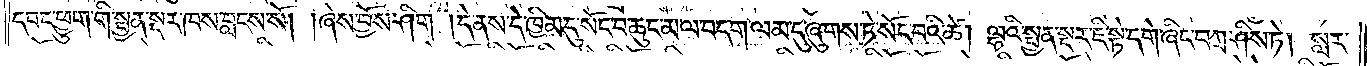དབང་ཕྱུག་གི་སྤྱན་སྔར་ཁས་བླངས་སོ། །ཞེས་བྱོས་ཤིག །དེ་ནས་དེ་ཁྱིམ་དུ་སོང་བ་ཆུང་མ་ལ་བདག་ལམ་དུ་ཞུགས་ཏེ་སོང་བའི་ཚེ། ལྷའི་སྤྱན་སྔར་ཇི་སྟེ་དགེ་ཞིང་བཀྲ་ཤིས་ཏེ། སླར་
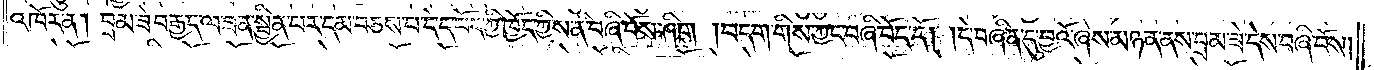འཁོར་ན། བྲམ་ཟེ་བརྒྱད་ལ་ཟན་སྦྱིན་པར་དམ་བཅས་པ་དེ་ད་བོད་ཀྱི་ཁྱོད་ཀྱིས་ནི་བཞི་པོས་ཤིག །བདག་གིས་ཀྱང་བཞི་བོད་དོ། །དེ་བཞིན་དུ་བྱའོ་ཞེས་མཉན་ནས་བྲམ་ཟེ་དེས་བཞི་བོས།
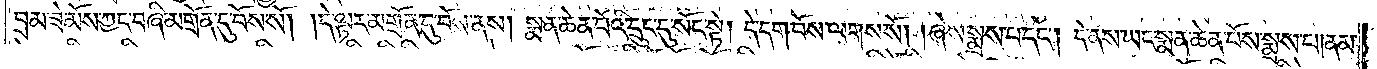བྲམ་ཟེ་མོས་ཀྱང་བཞི་མགྲོན་དུ་བོས་སོ། །དེ་ལྟར་མགྲོན་དུ་བོས་ནས། སྨན་ཆེན་པོའི་དྲུང་དུ་སོང་སྟེ། དེ་དག་བོས་ལགས་སོ། །ཞེས་སྨྲས་པ་དང༌། དེ་ནས་ཡང་སྨན་ཆེན་པོས་སྨྲས་པ། ནམ་
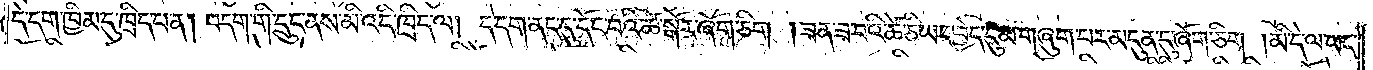དེ་དག་ཁྱིམ་དུ་ཁྲིད་པ་ན། བདག་གི་དྲུང་ནས་མི་འདི་ཁྲིད་ལ། དེ་དག་ནང་དུ་དོང་བའི་ཚེ་སྒོར་ཞོག་ཅིག །ཟན་ཟ་བའི་ཚེ་ཅི་ཡང་བྱེད་དུ་མ་གཞུག་པར་མདུན་དུ་ཞོག་ཅིག །མི་དེ་ལ་ཡང་
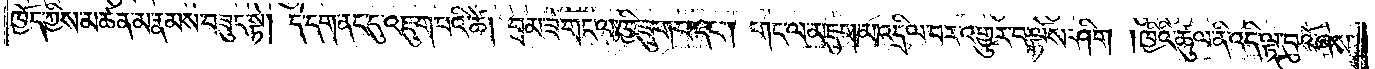ཁྱོད་ཀྱིས་མཚན་མ་རྣམས་བཟུང་སྟེ། དེ་དག་ནང་དུ་འཇུག་པའི་ཚེ། བྲམ་ཟེ་གང་ལ་ཁྱི་ཟུག་པ་དང༌། གང་ལ་མཇུག་མ་འདྲིལ་བར་འགྱུར་བ་ལྟོས་ཤིག །ཁྱིའི་ཚུལ་ནི་འདི་ལྟ་བུའོ་ཞེས་
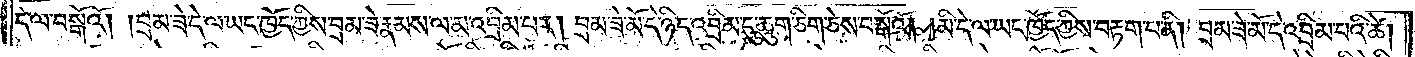དེ་ལ་བསྒོའོ། །བྲམ་ཟེ་དེ་ལ་ཡང་ཁྱོད་ཀྱིས་བྲམ་ཟེ་རྣམས་ལ་མ་འབྲིམ་པར། བྲམ་ཟེ་མོ་དེ་ཉིད་འབྲིམ་དུ་ཆུག་ཅིག་ཅེས་བསྒོའོ། །མི་དེ་ལ་ཡང་ཁྱོད་ཀྱིས་བརྟག་པ་ནི། བྲམ་ཟེ་མོ་དེ་འབྲིམ་པའི་ཚེ།
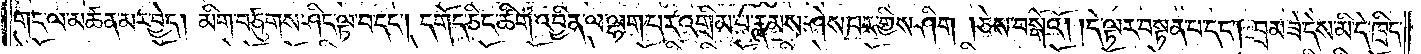གང་ལ་མཚན་མར་བྱེད། མིག་བཙུགས་ཤིང་ལྟ་བ་དང༌། དགོད་ཅིང་ཚིག་འབྱིན་ལ་ལྷག་པར་འགྲིམ་པ་རྣམས་ཤེས་པར་གྱིས་ཤིག །ཅེས་བསྒོའོ། །དེ་ལྟར་བསྟན་པ་དང༌། བྲམ་ཟེ་དེས་མི་དེ་ཁྲིད་
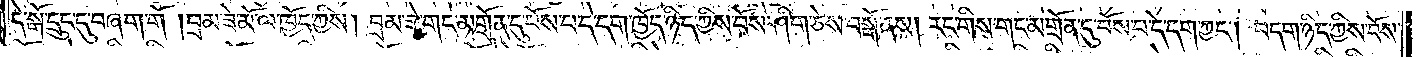དེ་སྒོ་དྲུང་དུ་བཞག་གོ །བྲམ་ཟེ་མོ་ལ་ཁྱོད་ཀྱིས། བྲམ་ཟེ་གང་མགྲོན་དུ་བོས་པ་དེ་དག་ཁྱོད་ཉིད་ཀྱིས་བོས་ཤིག་ཅེས་བསྒོ་ནས། རང་གིས་གང་མགྲོན་དུ་བོས་པ་དེ་དག་ཀྱང༌། བདག་ཉིད་ཀྱིས་བོས་
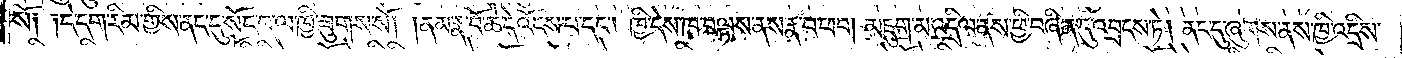སོ༑ ༑དེ་དག་རིམ་གྱིས་ནང་དུ་སོང་བ་ལ་ཁྱི་ཟུགས་སོ། །ནམ་རྣ་བོ་ཆེ་དེ་འོངས་པ་དང༌། ཁྱི་དེས་ཁ་བལྟས་ནས་རྣ་བ་ཕབ། མཇུག་མ་འདྲིལ་ནས་ཕྱི་བཞིན་དུ་འབྲངས་ཏེ། ནང་དུ་ཞུགས་ནས་ཁྱི་འདྲིས་
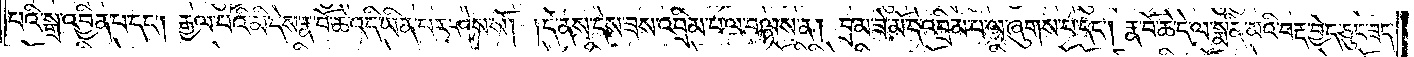པའི་སྒྲ་འབྱིན་པ་དང༌། རྒྱལ་པོའི་མི་དེས་རྣ་བོ་ཆེ་འདི་ཡིན་པར་ཤེས་སོ། །དེ་ནས་དེས་ཟས་འབྲིམ་པ་ལ་བལྟས་ན། བྲམ་ཟེ་མོ་དེ་འབྲིམ་པ་ལ་ཞུགས་པ་དང༌། རྣ་བོ་ཆེ་དེ་ལ་སྨིན་མའི་བརྡ་བྱེད་ཅུང་ཟད་
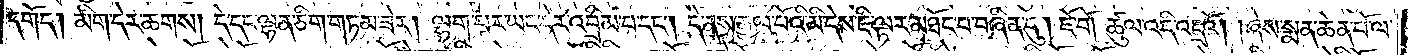དགོད། མིག་དེར་ཆགས། དེ་དང་ལྷན་ཅིག་གཏམ་ཟེར། ལྷག་པར་ཡང་དེར་འབྲིམ་པ་དང༌། དེ་ནས་རྒྱལ་པོའི་མི་དེས་ཇི་ལྟར་མཐོང་བ་བཞིན་དུ། ཇོ་བོ། ཚུལ་འདི་འདྲའོ། །ཞེས་སྨན་ཆེན་པོ་ལ་
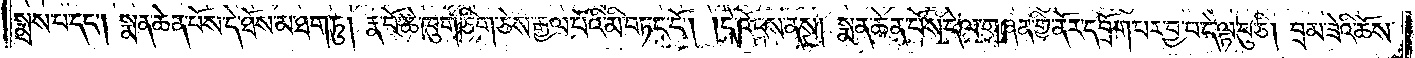སྨྲས་པ་དང༌། སྨན་ཆེན་པོས་དེ་ཐོས་མ་ཐག་ཏུ། རྣ་བོ་ཆེ་ཁུག་ཅིག་ཅེས་རྒྱལ་པོའི་མི་བཏང་ངོ༌། །དེ་འོངས་ནས། སྨན་ཆེན་པོས་དེ་ལ་གཞན་གྱི་ནོར་དབྲོག་པར་བྱ་བ་དེ་ལྟ་བུ་ཅི། བྲམ་ཟེའི་ཆོས་
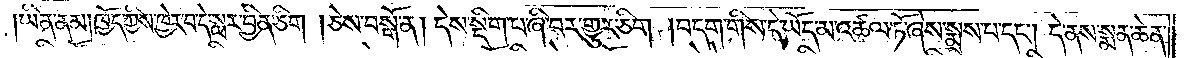ཡིན་ནམ། ཁྱོད་ཀྱིས་ཁྱེར་བ་དེ་སླར་བྱིན་ཅིག །ཅེས་བསྒོ་ན། དེས་སྡིག་བཞི་པར་གྱུར་ཅིག །བདག་གིས་དེ་ཡོད་མ་འཚལ་ཏོ་ཞེས་སྨྲས་པ་དང༌། དེ་ནས་སྨན་ཆེན་
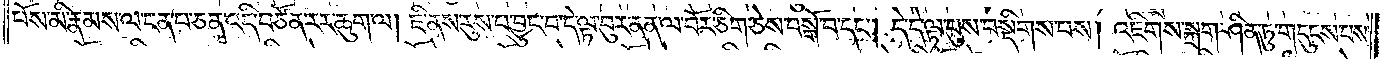པོས་མི་རྣམས་ལ་ངན་པ་ཅན་འདི་བཙོན་རར་ཆུག་ལ། ཇི་ནས་རུས་པ་བྱུང་བ་དེ་ལྟ་བུར་ནན་ལ་བོར་ཅིག་ཅེས་བསྒོ་བ་དང༌། དེ་དེ་ལྟ་བུས་བསྡིགས་པས། འཇིགས་སྐྲག་ཤིན་ཏུ་གདུངས་པས་
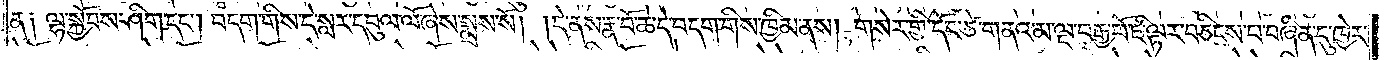ན། ལྷ་སྐྱོབས་ཤིག་དང༌། བདག་གིས་དེ་སླར་དབུལ་ལོ་ཞེས་སྨྲས་སོ། །དེ་ནས་རྣ་བོ་ཆེ་དེ་དག་གིས་ཁྱིམ་ནས། གསེར་གྱི་དོང་ཙེ་གནའ་མ་ལྔ་བརྒྱ་བོ་ཇི་ལྟར་བཅིངས་པ་བཞིན་དུ་ཁྱེར་
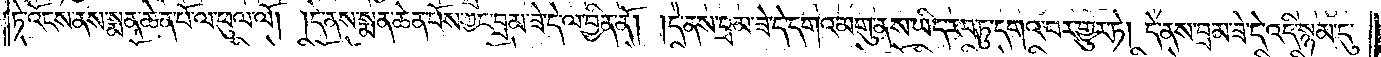ཏེ་འོངས་ནས་སྨན་ཆེན་པོ་ལ་ཕུལ་ལོ། །དེ་ནས་སྨན་ཆེན་པོས་ཀྱང་བྲམ་ཟེ་དེ་ལ་བྱིན་ནོ། །དེ་ནས་བྲམ་ཟེ་དེ་དགའ་མགུ་ནས་ཡིད་རབ་ཏུ་དགའ་བར་གྱུར་ཏེ། དེ་ནས་བྲམ་ཟེ་དེ་འདི་སྙམ་དུ་
